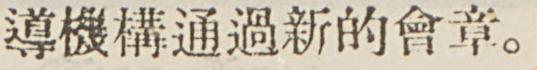導機構通過新的會章。
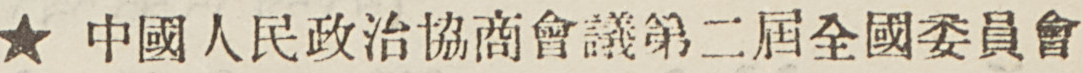★ 中國人民政治協商會議第二屆全國委員會
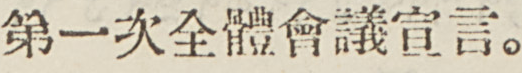第一次全體會議宣言。
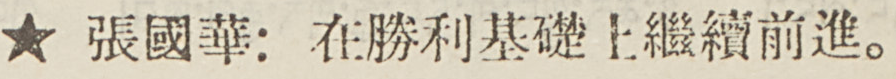★ 張國華：在勝利基礎上繼續前進。
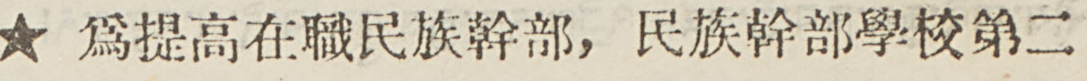★ 爲提高在職民族幹部，民族幹部學校第二
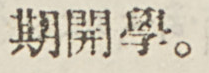期開學。
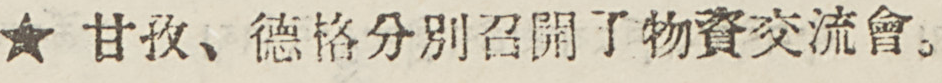★ 甘孜、德格分別召開了物資交流會。
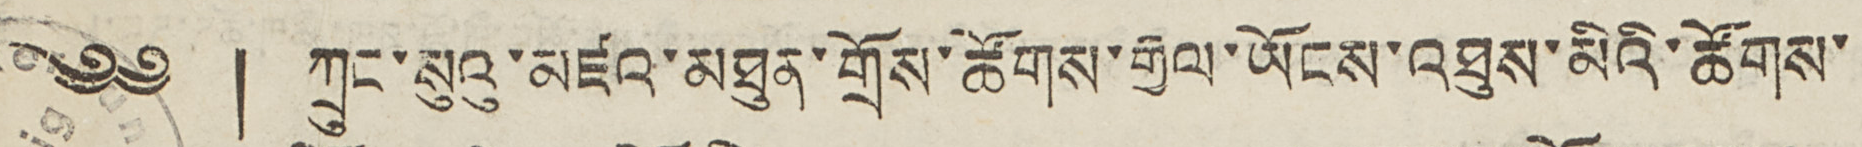༄༅ ། ཀྲུང་སུའུ་མཛའ་མཐུན་གྲོས་ཚོགས་རྒྱལ་ཡོངས་འཐུས་མིའི་ཚོགས་
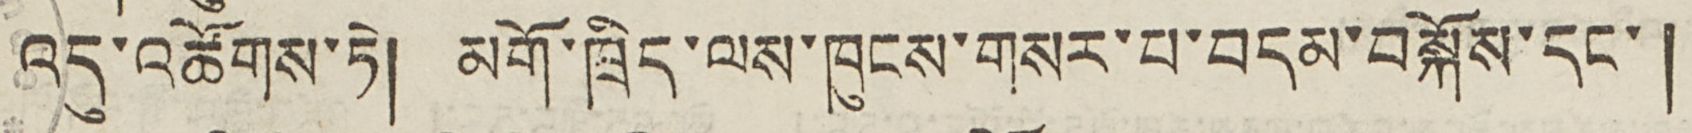འདུ་འཚོགས་ཏེ། མགོ་ཁྲིད་ལས་ཁུངས་གསར་པ་བདམ་བསྐོས་དང་།
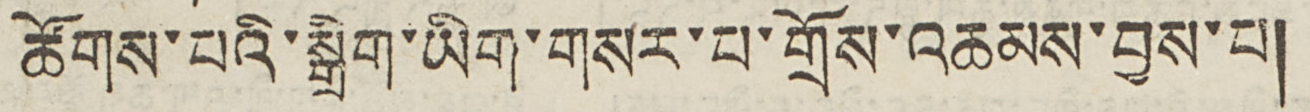ཚོགས་པའི་སྒྲིག་ཡིག་གསར་པ་གྲོས་འཆམས་བྱས་པ།
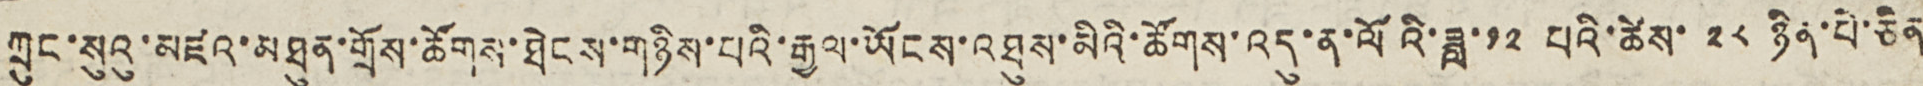ཀྲུང་སུའུ་མཛའ་མཐུན་གྲོས་ཚོགས་ཐེངས་གཉིས་པའི་རྒྱལ་ཡོངས་འཐུས་མིའི་ཚོགས་འདུ་ན་ལོའི་ཟླ་༡༢ པའི་ཚེས་ ༢༨ ཉིན་པེ་ཅིན
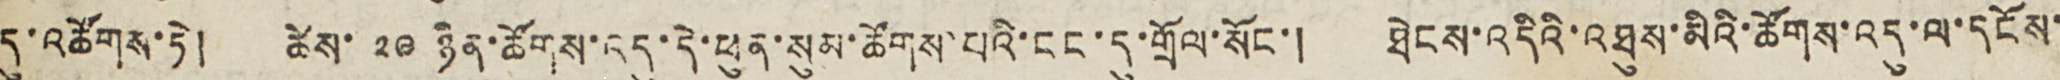དུ་འཚོགས་ཏེ། ཚེས་ ༢༠ ཉིན་ཚོགས་འདུ་དེ་ཕུན་སུམ་ཚོགས་པའི་ངང་དུ་གྲོལ་སོང་། ཐེངས་འདིའི་འཐུས་མིའི་ཚོགས་འདུ་ལ་དངོས་
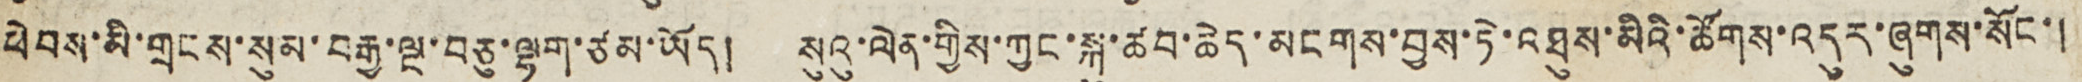ཕེབས་མི་གྲངས་སུམ་བརྒྱ་ལྔ་བཅུ་ལྷག་ཙམ་ཡོད། སུའུ་ལེན་གྱིས་ཀྱང་སྐུ་ཚབ་ཆེད་མངགས་བྱས་ཏེ་འཐུས་མིའི་ཚོགས་འདུར་ཞུགས་སོང་།
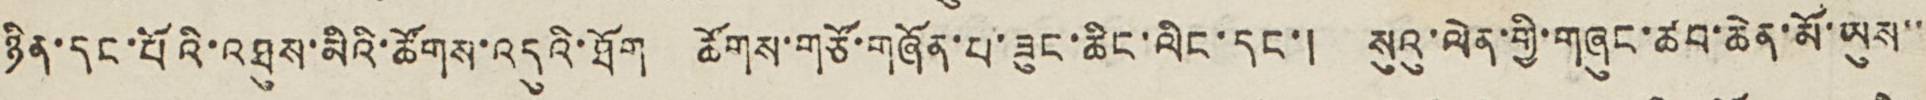ཉིན་དང་པོའི་འཐུས་མིའི་ཚོགས་འདུའི་ཐོག ཚོགས་གཙོ་གཞོན་པ་ཟུང་ཆིང་ལིང་དང་། སུའུ་ལེན་གྱི་གཞུང་ཚབ་ཆེན་མོ་ཡུས་་
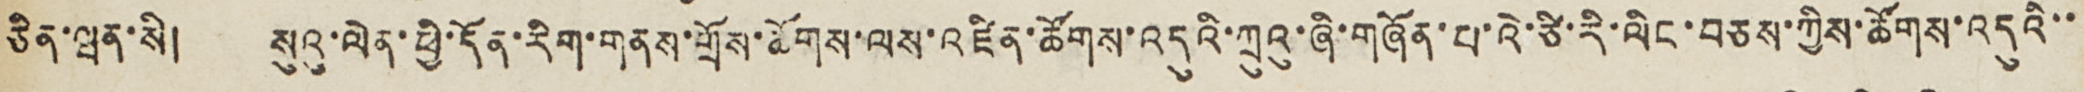ཅིན་ཝན་སི། སུའུ་ལེན་ཕྱི་དོན་རིག་གནས་གྲོས་ཚོགས་ལས་འཛིན་ཚོགས་འདུའི་གྲུའུ་ཞི་གཞོན་པ་འེ་ཙི་རི་ལིང་བཅས་ཀྱིས་ཚོགས་འདུའི་་
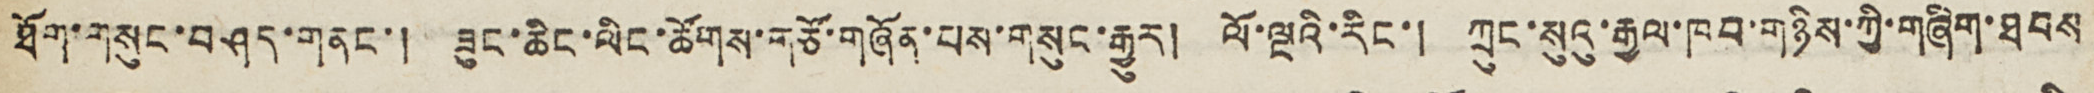ཐོག་གསུང་བཤད་གནང་། ཟུང་ཆིང་ལིང་ཚོགས་གཙོ་གཞོན་པས་གསུང་རྒྱུར། ལོ་ལྔའི་རིང་། ཀྲུང་སུའུ་རྒྱལ་ཁབ་གཉིས་ཀྱི་གཞིག་ཐབས
